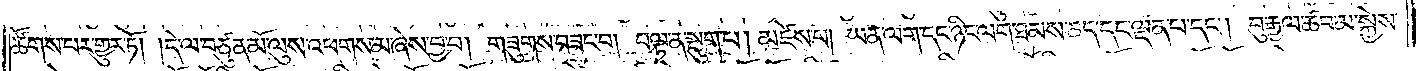ཚོགས་པར་གྱུར་ཏོ། །དེ་ལ་བཙུན་མོ་ལུས་འཕགས་མ་ཞེས་བྱ་བ། གཟུགས་བཟང་བ། བལྟ་ན་སྡུག་པ། མཛེས་པ། ཡན་ལག་དང་ཉིང་ལག་ཐམས་ཅད་དང་ལྡན་པ་དང༌། བུ་རྒྱལ་ཚབ་མ་སྐྱེས་
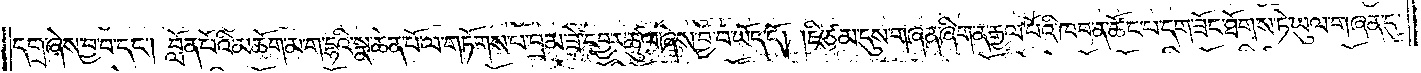དགྲ་ཞེས་བྱ་བ་དང༌། བློན་པོའི་མཆོག་མ་ག་དྷའི་སྣ་ཆེན་པོ་ལ་གཏོགས་པ་བྲམ་ཟེ་དབྱར་ཚུལ་ཞེས་བྱ་བ་ཡོད་དོ། །ཇི་ཙམ་དུས་གཞན་ཞིག་ན་རྒྱལ་པོའི་ཁབ་ན་ཚོང་པ་དག་ཟོང་ཐོགས་ཏེ་ཡུལ་གཞན་དུ་
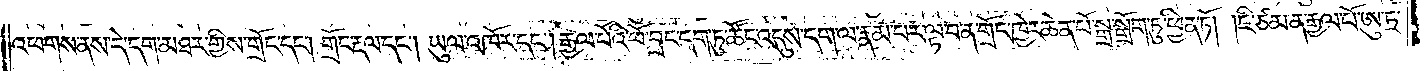འཕགས་ནས་དེ་དག་མཐར་གྱིས་གྲོང་དང༌། གྲོང་རྡལ་དང༌། ཡུལ་འཁོར་དང༌། རྒྱལ་པོའི་ཕོ་བྲང་དག་ཏུ་ཚོང་འདུས་དག་ལ་རྣམ་པར་ལྟ་བ་ན་གྲོང་ཁྱེར་ཆེན་པོ་སྒྲ་སྒྲོག་ཏུ་ཕྱིན་ཏོ། །ཇི་ཙམ་ན་རྒྱལ་པོ་ཨུ་ཏྲ་
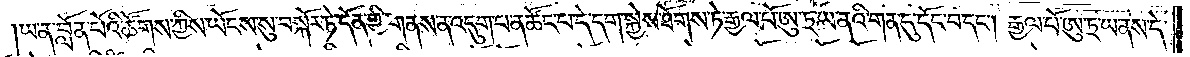ཡ་ན་བློན་པོའི་ཚོགས་ཀྱིས་ཡོངས་སུ་བསྐོར་ཏེ་དོན་གྱི་གནས་ན་འདུག་པ་ན་ཚོང་པ་དེ་དག་སྐྱེས་ཐོགས་ཏེ་རྒྱལ་པོ་ཨུ་ཏྲ་ཡ་ནའི་གན་དུ་དོང་བ་དང༌། རྒྱལ་པོ་ཨུ་ཏྲ་ཡ་ནས་དེ་
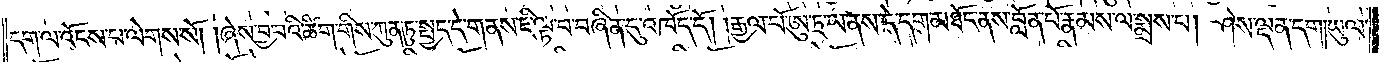དག་ལ་འོངས་པ་ལེགས་སོ། །ཞེས་བྱ་བའི་ཚིག་གིས་ཀུན་ཏུ་སྤྱད་དེ་གནས་ཇི་ལྟ་བ་བཞིན་དུ་འཁོད་དོ། །རྒྱལ་པོ་ཨུ་ཏྲ་ཡ་ནས་དེ་དག་མཐོང་ནས་བློན་པོ་རྣམས་ལ་སྨྲས་པ། ཤེས་ལྡན་དག།ཡུལ་
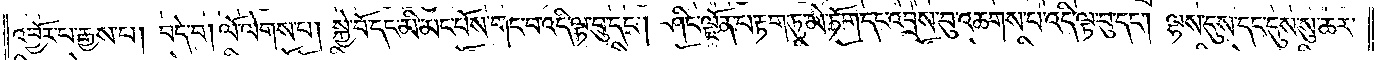འབྱོར་པ་རྒྱས་པ། བདེ་བ། ལོ་ལེགས་པ། སྐྱེ་བོ་དང་མི་མང་པོས་གང་བ་འདི་ལྟ་བུ་དང༌། ཤིང་ལྗོན་པ་རྟག་ཏུ་མེ་ཏོག་དང་འབྲས་བུ་འཆགས་པ་འདི་ལྟ་བུ་དང༌། ལྷས་དུས་དང་དུས་སུ་ཆར་
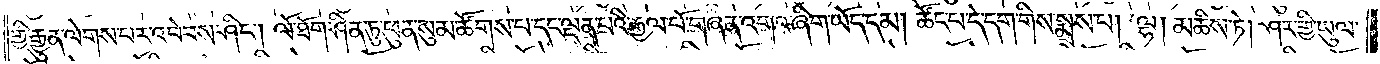གྱི་རྒྱུན་ལེགས་པར་འབེབས་ཤིང༌། ལོ་ཐོག་ཤིན་ཏུ་ཕུན་སུམ་ཚོགས་པ་དང་ལྡན་པའི་རྒྱལ་པོ་གཞན་འགའ་ཞིག་ཡོད་དམ། ཚོང་པ་དེ་དག་གིས་སྨྲས་པ། ལྷ། མཆིས་ཏེ། ཤར་གྱི་ཡུལ་
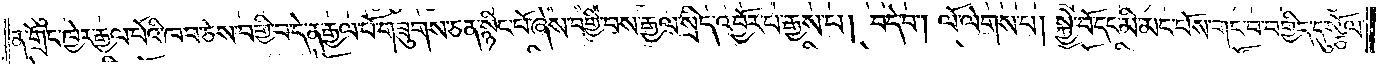ན་གྲོང་ཁྱེར་རྒྱལ་པོའི་ཁབ་ཅེས་བགྱི་བ་དེ་ན་རྒྱལ་པོ་གཟུགས་ཅན་སྙིང་པོ་ཞེས་བགྱི་བས་རྒྱལ་སྲིད་འབྱོར་པ་རྒྱས་པ། བདེ་བ། ལོ་ལེགས་པ། སྐྱེ་བོ་དང་མི་མང་པོས་གང་བ་བགྱིད་དུ་སྩོལ་
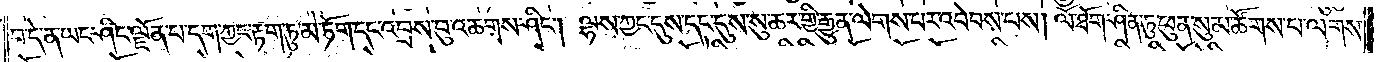བ་དེ་ན་ཡང་ཤིང་ལྗོན་པ་དག་ཀྱང་རྟག་ཏུ་མེ་ཏོག་དང་འབྲས་བུ་འཆགས་ཤིང༌། ལྷས་ཀྱང་དུས་དང་དུས་སུ་ཆར་གྱི་རྒྱུན་ལེགས་པར་འབེབས་པས། ལོ་ཐོག་ཤིན་ཏུ་ཕུན་སུམ་ཚོགས་པ་ལགས་
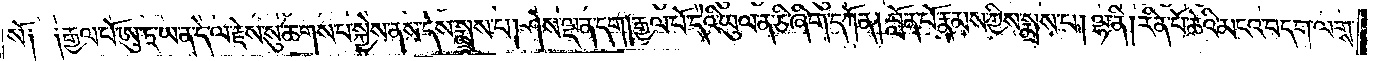སོ༑ ༑རྒྱལ་པོ་ཨུ་ཏྲ་ཡ་ན་དེ་ལ་རྗེས་སུ་ཆགས་པ་སྐྱེས་ནས་དེས་སྨྲས་པ། ཤེས་ལྡན་དག །རྒྱལ་པོ་དེའི་ཡུལ་ན་ཅི་ཞིག་དཀོན། བློན་པོ་རྣམས་ཀྱིས་སྨྲས་པ། ལྷ་ནི། རིན་པོ་ཆེའི་མངའ་བདག་ལགས་
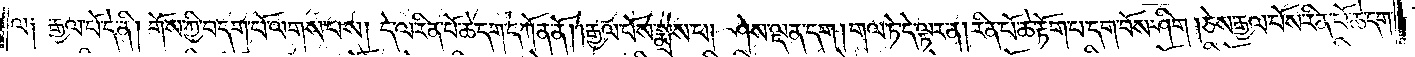ལ༑ རྒྱལ་པོ་དེ་ནི། གོས་ཀྱི་བདག་པོ་ལགས་པས། དེ་ལ་རིན་པོ་ཆེ་དག་དཀོན་ནོ། །རྒྱལ་པོས་སྨྲས་པ། ཤེས་ལྡན་དག །གལ་ཏེ་དེ་ལྟར་ན། རིན་པོ་ཆེ་རྟོག་པ་དག་བོས་ཤིག །ཅེས་རྒྱལ་པོས་རིན་པོ་ཆེ་དག་
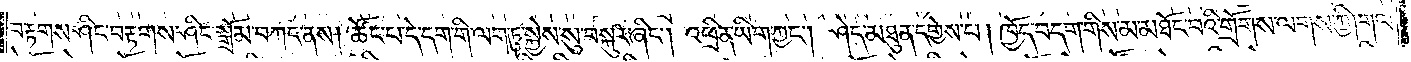བརྟགས་ཤིང་བརྟགས་ཤིང་སྒྲོམ་བཀང་ནས། ཚོང་པ་དེ་དག་གི་ལག་ཏུ་སྐྱེས་སུ་བསྐུར་ཞིང༌། འཕྲིན་ཡིག་ཀྱང༌། ཤེད་མཐུན་དགྱེས་པ། ཁྱོད་བདག་གིས་མ་མཐོང་བའི་གྲོགས་ལགས་ཀྱི།གལ་
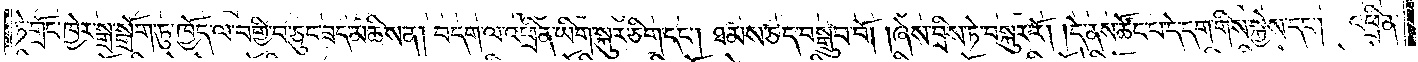ཏེ་གྲོང་ཁྱེར་སྒྲ་སྒྲོག་ཏུ་ཁྱོད་ལ་བགྱི་བ་ཅུང་ཟད་མཆིས་ན། བདག་ལ་འཕྲིན་ཡིག་སྐུར་ཅིག་དང༌། ཐམས་ཅད་བསྒྲུབ་བོ། །ཞེས་བྲིས་ཏེ་བསྐུར་རོ། །དེ་ནས་ཚོང་པ་དེ་དག་གིས་སྐྱེས་དང༌། འཕྲིན་
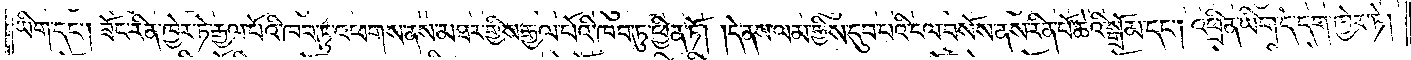ཡིག་དང༌། ཟོང་རིན་ཁྱེར་ཏེ་རྒྱལ་པོའི་ཁབ་ཏུ་འཕགས་ནས་མཐར་གྱིས་རྒྱལ་པོའི་ཁབ་ཏུ་ཕྱིན་ཏོ། །དེ་ནས་ལམ་གྱིས་དུབ་པའི་ངལ་བསོས་ནས་རིན་པོ་ཆེའི་སྒྲོམ་དང༌། འཕྲིན་ཡིག་དེ་དག་ཁྱེར་ཏེ།
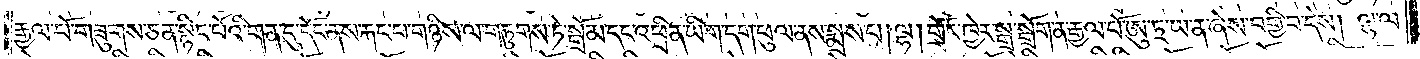རྒྱལ་པོ་གཟུགས་ཅན་སྙིང་པོའི་གན་དུ་དོང་ནས་རྐང་པ་གཉིས་ལ་གཏུགས་ཏེ་སྒྲོམ་དང་འཕྲིན་ཡིག་དག་ཕུལ་ནས་སྨྲས་པ། ལྷ། གྲོང་ཁྱེར་སྒྲ་སྒྲོག་ན་རྒྱལ་པོ་ཨུ་ཏྲ་ཡ་ན་ཞེས་བགྱི་བ་དེས། ལྷ་ལ
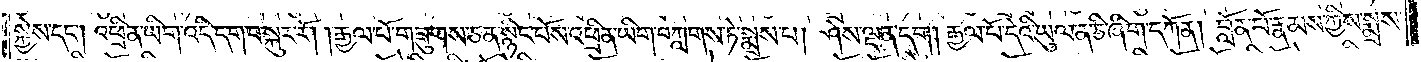སྐྱེས་དང༌། འཕྲིན་ཡིག་འདི་དག་བསྐུར་རོ། །རྒྱལ་པོ་གཟུགས་ཅན་སྙིང་པོས་འཕྲིན་ཡིག་བཀླགས་ཏེ་སྨྲས་པ། ཤེས་ལྡན་དག །རྒྱལ་པོ་དེའི་ཡུལ་ན་ཅི་ཞིག་དཀོན། བློན་པོ་རྣམས་ཀྱིས་སྨྲས་
